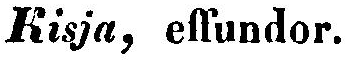Kisja, effundor.
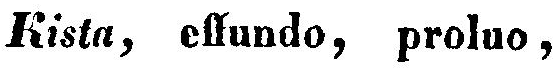Kista, effundo, proluo,
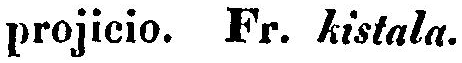projicio. Fr. kistala.
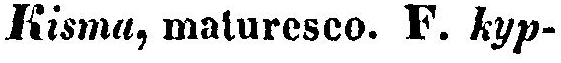Kisma, maturesco. F. kyp-
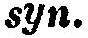syn.
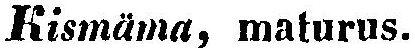Kismäma, maturus.
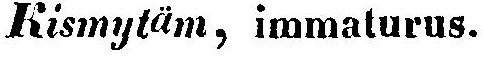Kismytäm, immaturus.
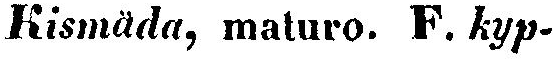Kismäda, maturo. F. kyp-
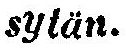sytän.
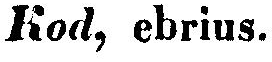Kod, ebrius.
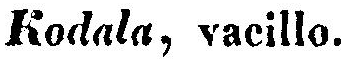Kodala, vacillo.
